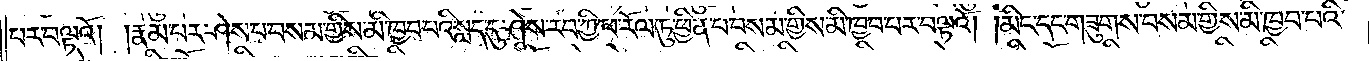པར་བལྟའོ། །རྣམ་པར་ཤེས་པ་བསམ་གྱིས་མི་ཁྱབ་པའི་སླད་དུ་ཤེས་རབ་ཀྱི་ཕ་རོལ་ཏུ་ཕྱིན་པ་བསམ་གྱིས་མི་ཁྱབ་པར་བལྟའོ། །མིང་དང་གཟུགས་བསམ་གྱིས་མི་ཁྱབ་པའི་
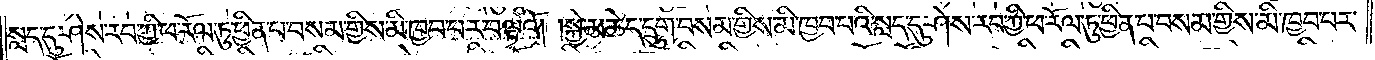སླད་དུ་ཤེས་རབ་ཀྱི་ཕ་རོལ་ཏུ་ཕྱིན་པ་བསམ་གྱིས་མི་ཁྱབ་པར་བལྟའོ། །སྐྱེ་མཆེད་དྲུག་བསམ་གྱིས་མི་ཁྱབ་པའི་སླད་དུ་ཤེས་རབ་ཀྱི་ཕ་རོལ་ཏུ་ཕྱིན་པ་བསམ་གྱིས་མི་ཁྱབ་པར་
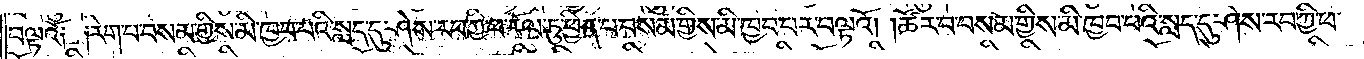བལྟའོ༑ ༑རེག་པ་བསམ་གྱིས་མི་ཁྱབ་པའི་སླད་དུ་ཤེས་རབ་ཀྱི་ཕ་རོལ་ཏུ་ཕྱིན་པ་བསམ་གྱིས་མི་ཁྱབ་པར་བལྟའོ། །ཚོར་བ་བསམ་གྱིས་མི་ཁྱབ་པའི་སླད་དུ་ཤེས་རབ་ཀྱི་ཕ་
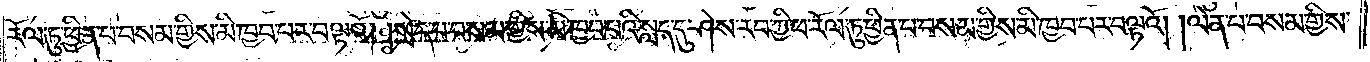རོལ་ཏུ་ཕྱིན་པ་བསམ་གྱིས་མི་ཁྱབ་པར་བལྟའོ། །སྲེད་པ་བསམ་གྱིས་མི་ཁྱབ་པའི་སླད་དུ་ཤེས་རབ་ཀྱི་ཕ་རོལ་ཏུ་ཕྱིན་པ་བསམ་གྱིས་མི་ཁྱབ་པར་བལྟའོ། །ལེན་པ་བསམ་གྱིས་
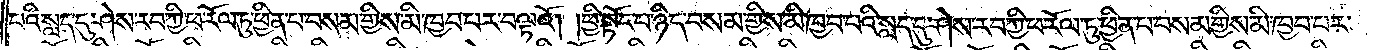པའི་སླད་དུ་ཤེས་རབ་ཀྱི་ཕ་རོལ་ཏུ་ཕྱིན་པ་བསམ་གྱིས་མི་ཁྱབ་པར་བལྟའོ། །ཕྱི་སྟོང་པ་ཉིད་བསམ་གྱིས་མི་ཁྱབ་པའི་སླད་དུ་ཤེས་རབ་ཀྱི་ཕ་རོལ་ཏུ་ཕྱིན་པ་བསམ་གྱིས་མི་ཁྱབ་པར་
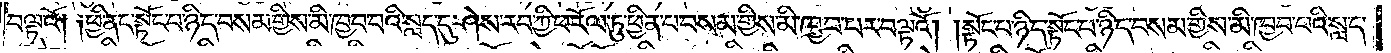བལྟའོ༑ ༑ཕྱི་ནང་སྟོང་པ་ཉིད་བསམ་གྱིས་མི་ཁྱབ་པའི་སླད་དུ་ཤེས་རབ་ཀྱི་ཕ་རོལ་ཏུ་ཕྱིན་པ་བསམ་གྱིས་མི་ཁྱབ་པར་བལྟའོ། །སྟོང་པ་ཉིད་སྟོང་པ་ཉིད་བསམ་གྱིས་མི་ཁྱབ་པའི་སླད་
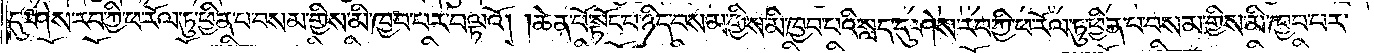དུ་ཤེས་རབ་ཀྱི་ཕ་རོལ་ཏུ་ཕྱིན་པ་བསམ་གྱིས་མི་ཁྱབ་པར་བལྟའོ། །ཆེན་པོ་སྟོང་པ་ཉིད་བསམ་གྱིས་མི་ཁྱབ་པའི་སླད་དུ་ཤེས་རབ་ཀྱི་ཕ་རོལ་ཏུ་ཕྱིན་པ་བསམ་གྱིས་མི་ཁྱབ་པར་
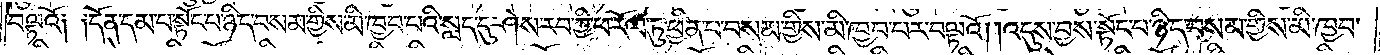བལྟའོ༑ ༑དོན་དམ་པ་སྟོང་པ་ཉིད་བསམ་གྱིས་མི་ཁྱབ་པའི་སླད་དུ་ཤེས་རབ་ཀྱི་ཕ་རོལ་ཏུ་ཕྱིན་པ་བསམ་གྱིས་མི་ཁྱབ་པར་བལྟའོ། །འདུས་བྱས་སྟོང་པ་ཉིད་བསམ་གྱིས་མི་ཁྱབ་
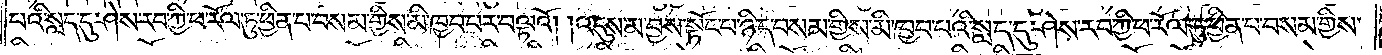པའི་སླད་དུ་ཤེས་རབ་ཀྱི་ཕ་རོལ་ཏུ་ཕྱིན་པ་བསམ་གྱིས་མི་ཁྱབ་པར་བལྟའོ། །འདུས་མ་བྱས་སྟོང་པ་ཉིད་བསམ་གྱིས་མི་ཁྱབ་པའི་སླད་དུ་ཤེས་རབ་ཀྱི་ཕ་རོལ་ཏུ་ཕྱིན་པ་བསམ་གྱིས་
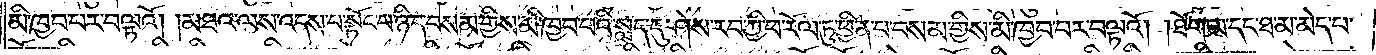མི་ཁྱབ་པར་བལྟའོ། །མཐའ་ལས་འདས་པ་སྟོང་པ་ཉིད་བསམ་གྱིས་མི་ཁྱབ་པའི་སླད་དུ་ཤེས་རབ་ཀྱི་ཕ་རོལ་ཏུ་ཕྱིན་པ་བསམ་གྱིས་མི་ཁྱབ་པར་བལྟའོ། །ཐོག་མ་དང་ཐ་མ་མེད་པ་
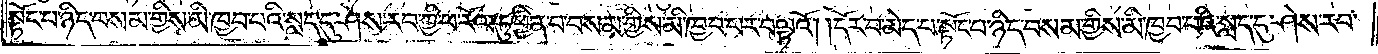སྟོང་པ་ཉིད་བསམ་གྱིས་མི་ཁྱབ་པའི་སླད་དུ་ཤེས་རབ་ཀྱི་ཕ་རོལ་ཏུ་ཕྱིན་པ་བསམ་གྱིས་མི་ཁྱབ་པར་བལྟའོ། །དོར་བ་མེད་པ་སྟོང་པ་ཉིད་བསམ་གྱིས་མི་ཁྱབ་པའི་སླད་དུ་ཤེས་རབ་
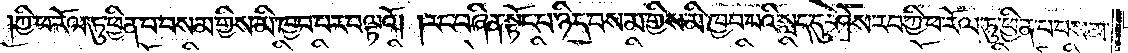ཀྱི་ཕ་རོལ་ཏུ་ཕྱིན་པ་བསམ་གྱིས་མི་ཁྱབ་པར་བལྟའོ། །རང་བཞིན་སྟོང་པ་ཉིད་བསམ་གྱིས་མི་ཁྱབ་པའི་སླད་དུ་ཤེས་རབ་ཀྱི་ཕ་རོལ་ཏུ་ཕྱིན་པ་བསམ་
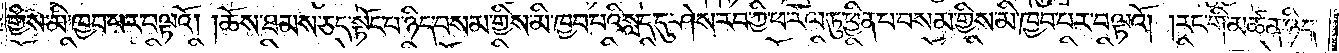གྱིས་མི་ཁྱབ་པར་བལྟའོ། །ཆོས་ཐམས་ཅད་སྟོང་པ་ཉིད་བསམ་གྱིས་མི་ཁྱབ་པའི་སླད་དུ་ཤེས་རབ་ཀྱི་ཕ་རོལ་ཏུ་ཕྱིན་པ་བསམ་གྱིས་མི་ཁྱབ་པར་བལྟའོ། །རང་གི་མཚན་ཉིད་
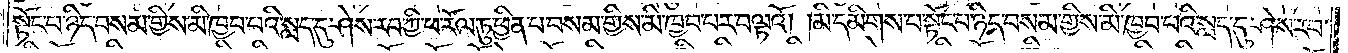སྟོང་པ་ཉིད་བསམ་གྱིས་མི་ཁྱབ་པའི་སླད་དུ་ཤེས་རབ་ཀྱི་ཕ་རོལ་ཏུ་ཕྱིན་པ་བསམ་གྱིས་མི་ཁྱབ་པར་བལྟའོ། །མི་དམིགས་པ་སྟོང་པ་ཉིད་བསམ་གྱིས་མི་ཁྱབ་པའི་སླད་དུ་ཤེས་རབ་
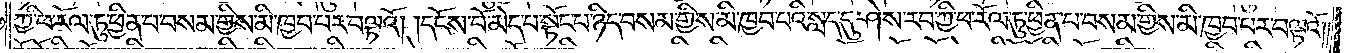ཀྱི་ཕ་རོལ་ཏུ་ཕྱིན་པ་བསམ་གྱིས་མི་ཁྱབ་པར་བལྟའོ། །དངོས་པོ་མེད་པ་སྟོང་པ་ཉིད་བསམ་གྱིས་མི་ཁྱབ་པའི་སླད་དུ་ཤེས་རབ་ཀྱི་ཕ་རོལ་ཏུ་ཕྱིན་པ་བསམ་གྱིས་མི་ཁྱབ་པར་བལྟའོ། །
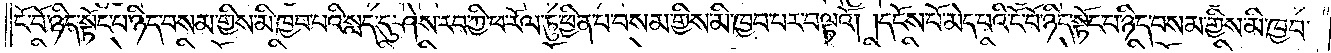ངོ་བོ་ཉིད་སྟོང་པ་ཉིད་བསམ་གྱིས་མི་ཁྱབ་པའི་སླད་དུ་ཤེས་རབ་ཀྱི་ཕ་རོལ་ཏུ་ཕྱིན་པ་བསམ་གྱིས་མི་ཁྱབ་པར་བལྟའོ། །དངོས་པོ་མེད་པའི་ངོ་བོ་ཉིད་སྟོང་པ་ཉིད་བསམ་གྱིས་མི་ཁྱབ་
